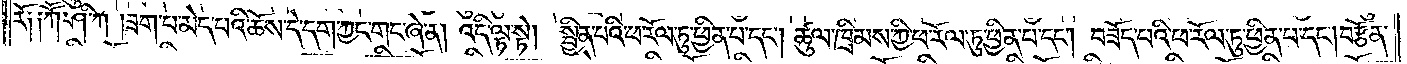རོ༑ ༑ཀཽ་ཤི་ཀ །ཟག་པ་མེད་པའི་ཆོས་དེ་དག་ཀྱང་གང་ཞེ་ན། འདི་ལྟ་སྟེ། སྦྱིན་པའི་ཕ་རོལ་ཏུ་ཕྱིན་པ་དང༌། ཚུལ་ཁྲིམས་ཀྱི་ཕ་རོལ་ཏུ་ཕྱིན་པ་དང༌། བཟོད་པའི་ཕ་རོལ་ཏུ་ཕྱིན་པ་དང༌། བརྩོན་
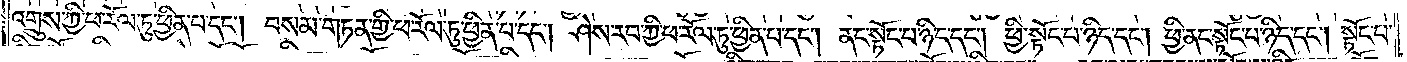འགྲུས་ཀྱི་ཕ་རོལ་ཏུ་ཕྱིན་པ་དང༌། བསམ་གཏན་གྱི་ཕ་རོལ་ཏུ་ཕྱིན་པ་དང༌། ཤེས་རབ་ཀྱི་ཕ་རོལ་ཏུ་ཕྱིན་པ་དང༌། ནང་སྟོང་པ་ཉིད་དང༌། ཕྱི་སྟོང་པ་ཉིད་དང༌། ཕྱི་ནང་སྟོང་པ་ཉིད་དང༌། སྟོང་པ་
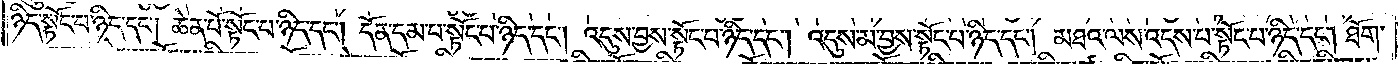ཉིད་སྟོང་པ་ཉིད་དང༌། ཆེན་པོ་སྟོང་པ་ཉིད་དང༌། དོན་དམ་པ་སྟོང་པ་ཉིད་དང༌། འདུས་བྱས་སྟོང་པ་ཉིད་དང༌། འདུས་མ་བྱས་སྟོང་བ་ཉིད་དང༌། མཐའ་ལས་འདས་པ་སྟོང་པ་ཉིད་དང༌། ཐོག་
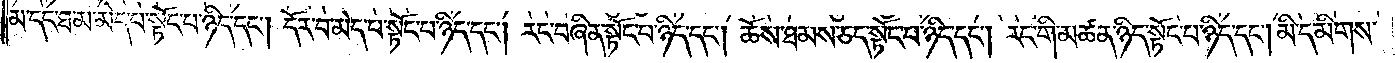མ་དང་ཐ་མ་མེད་པ་སྟོང་པ་ཉིད་དང༌། དོར་བ་མེད་པ་སྟོང་པ་ཉིད་དང༌། རང་བཞིན་སྟོང་པ་ཉིད་དང༌། ཆོས་ཐམས་ཅད་སྟོང་པ་ཉིད་དང༌། རང་གི་མཚན་ཉིད་སྟོང་པ་ཉིད་དང༌། མི་དམིགས་
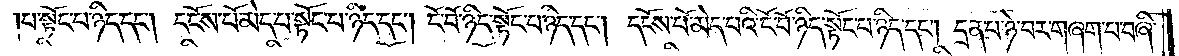པ་སྟོང་པ་ཉིད་དང༌། དངོས་པོ་མེད་པ་སྟོང་པ་ཉིད་དང༌། ངོ་བོ་ཉིད་སྟོང་པ་ཉིད་དང༌། དངོས་པོ་མེད་པའི་ངོ་བོ་ཉིད་སྟོང་པ་ཉིད་དང༌། དྲན་པ་ཉེ་བར་གཞག་པ་བཞི་
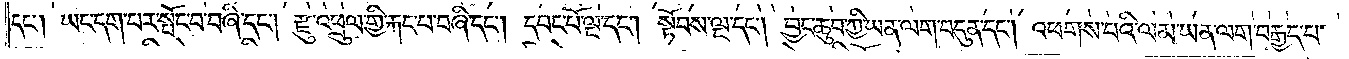དང༌། ཡང་དག་པར་སྤོང་བ་བཞི་དང༌། རྫུ་འཕྲུལ་གྱི་རྐང་པ་བཞི་དང༌། དབང་པོ་ལྔ་དང༌། སྟོབས་ལྔ་དང༌། བྱང་ཆུབ་ཀྱི་ཡན་ལག་བདུན་དང༌། འཕགས་པའི་ལམ་ཡན་ལག་བརྒྱད་པ་
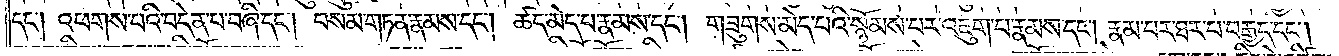དང༌། འཕགས་པའི་བདེན་པ་བཞི་དང༌། བསམ་གཏན་རྣམས་དང༌། ཚད་མེད་པ་རྣམས་དང༌། གཟུགས་མེད་པའི་སྙོམས་པར་འཇུག་པ་རྣམས་དང༌། རྣམ་པར་ཐར་པ་བརྒྱད་དང༌།
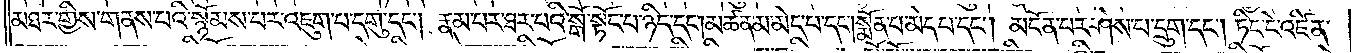མཐར་གྱིས་གནས་པའི་སྙོམས་པར་འཇུག་པ་དགུ་དང༌། རྣམ་པར་ཐར་པའི་སྒོ་སྟོང་པ་ཉིད་དང༌། མཚན་མ་མེད་པ་དང༌། སྨོན་པ་མེད་པ་དང༌། མངོན་པར་ཤེས་པ་དྲུག་དང༌། ཏིང་ངེ་འཛིན་
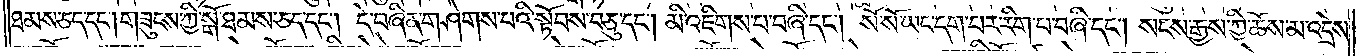ཐམས་ཅད་དང༌། གཟུངས་ཀྱི་སྒོ་ཐམས་ཅད་དང༌། དེ་བཞིན་གཤེགས་པའི་སྟོབས་བཅུ་དང༌། མི་འཇིགས་པ་བཞི་དང༌། སོ་སོ་ཡང་དག་པར་རིག་པ་བཞི་དང༌། སངས་རྒྱས་ཀྱི་ཆོས་མ་འདྲེས་
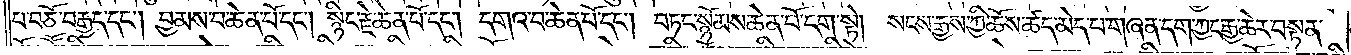པ་བཅོ་བརྒྱད་དང༌། བྱམས་པ་ཆེན་པོ་དང༌། སྙིང་རྗེ་ཆེན་པོ་དང༌། དགའ་བ་ཆེན་པོ་དང༌། བཏང་སྙོམས་ཆེན་པོ་དག་སྟེ། སངས་རྒྱས་ཀྱི་ཆོས་ཚད་མེད་པ་གཞན་དག་ཀྱང་རྒྱ་ཆེར་བསྟན་
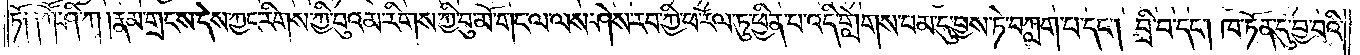ཏོ། །ཀཽ་ཤི་ཀ །རྣམ་གྲངས་དེས་ཀྱང་རིགས་ཀྱི་བུའམ་རིགས་ཀྱི་བུ་མོ་གང་ལ་ལས་ཤེས་རབ་ཀྱི་ཕ་རོལ་ཏུ་ཕྱིན་པ་འདི་གླེགས་བམ་དུ་བྱས་ཏེ་བཀླག་པ་དང༌། བྲི་བ་དང༌། ཁ་ཏོན་དུ་བྱ་བའི་
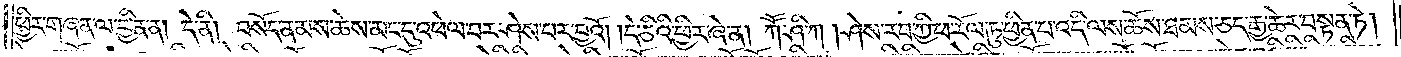ཕྱིར་གཞན་ལ་བྱིན་ན། དེ་ནི། བསོད་ནམས་ཆེས་མང་དུ་འཕེལ་བར་ཤེས་པར་བྱའོ། །དེ་ཅིའི་ཕྱིར་ཞེ་ན། ཀཽ་ཤི་ཀ །ཤེས་རབ་ཀྱི་ཕ་རོལ་ཏུ་ཕྱིན་པ་འདི་ལས་ཆོས་ཐམས་ཅད་རྒྱ་ཆེར་བསྟན་ཏེ།
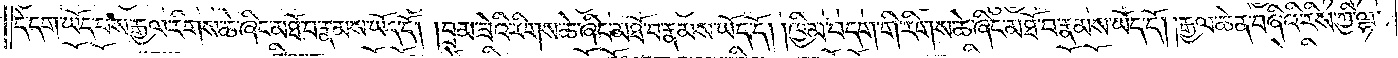དེ་དག་ཡོད་པས་རྒྱལ་རིགས་ཆེ་ཞིང་མཐོ་བ་རྣམས་ཡོད་དོ། །བྲམ་ཟེའི་རིགས་ཆེ་ཞིང་མཐོ་བ་རྣམས་ཡོད་དོ། །ཁྱིམ་བདག་གི་རིགས་ཆེ་ཞིང་མཐོ་བ་རྣམས་ཡོད་དོ། །རྒྱལ་ཆེན་བཞིའི་རིས་ཀྱི་ལྷ་
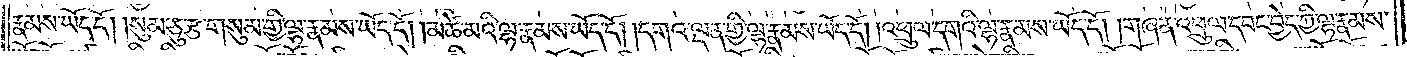རྣམས་ཡོད་དོ། །སུམ་ཅུ་རྩ་གསུམ་གྱི་ལྷ་རྣམས་ཡོད་དོ། །མཚེ་མའི་ལྷ་རྣམས་ཡོད་དོ། །དགའ་ལྡན་གྱི་ལྷ་རྣམས་ཡོད་དོ། །འཕྲུལ་དགའི་ལྷ་རྣམས་ཡོད་དོ། །གཞན་འཕྲུལ་དབང་བྱེད་ཀྱི་ལྷ་རྣམས་
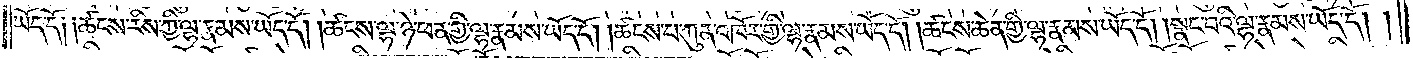ཡོད་དོ། །ཚངས་རིས་ཀྱི་ལྷ་རྣམས་ཡོད་དོ། །ཚངས་ལྷ་ཉེ་ཕན་གྱི་ལྷ་རྣམས་ཡོད་དོ། །ཚངས་པ་ཀུན་འཁོར་གྱི་ལྷ་རྣམས་ཡོད་དོ། །ཚངས་ཆེན་གྱི་ལྷ་རྣམས་ཡོད་དོ། །སྣང་བའི་ལྷ་རྣམས་ཡོད་དོ། །
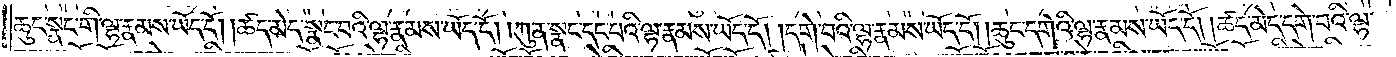ཆུང་སྣང་གི་ལྷ་རྣམས་ཡོད་དོ། །ཚད་མེད་སྣང་བའི་ལྷ་རྣམས་ཡོད་དོ། །ཀུན་སྣང་དང་བའི་ལྷ་རྣམས་ཡོད་དོ། །དགེ་བའི་ལྷ་རྣམས་ཡོད་དོ། །ཆུང་དགེའི་ལྷ་རྣམས་ཡོད་དོ། །ཚད་མེད་དགེ་བའི་ལྷ་
